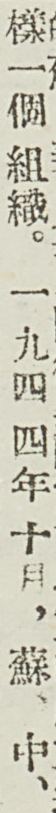樣一個組織。一九四四年十月，蘇、中、
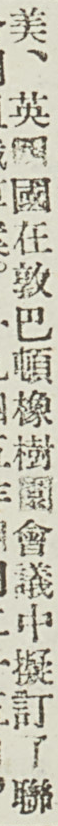美、英四國在頓巴頓橡樹園會議中擬定了聯
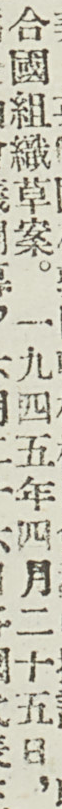合國組織草案。一九四五年四月二十五日，
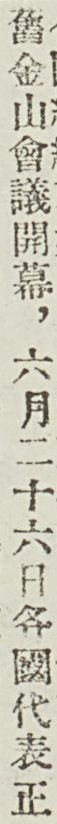舊金山會議開幕，六月二十六日各國代表正
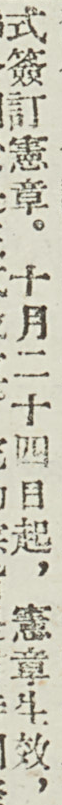式簽訂憲章。十月二十四日起，憲章生效，
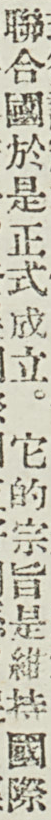聯合國於是正式成立。它的宗旨是維持國際
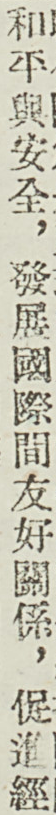和平與安全，發展國際間友好關係，促進經
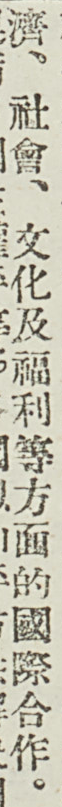濟、社會、文化及福利等方面的國際合作。
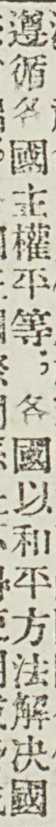遵循各國主權平等；各國以和平方法解決國
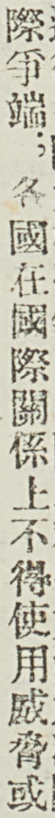際爭端；各國在國際關係上不得使用威脅或
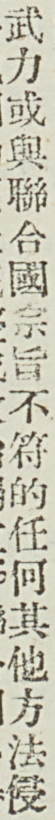武力或與聯合國宗旨不符的任何其他方法侵
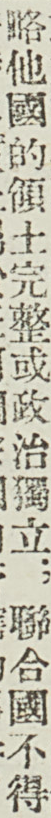略他國的領土完整或政治獨立；聯合國不得
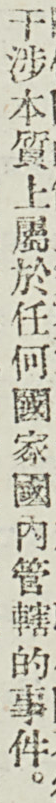干涉本質上屬於任何國家國內管轄的事件。
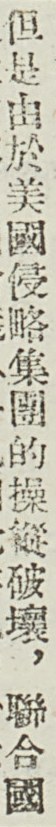但是由於美國侵略集團的操縱破壞，聯合國
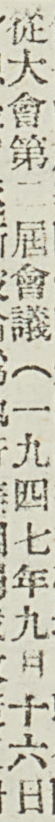從大會第二屆會議（一九四七年九月十六日
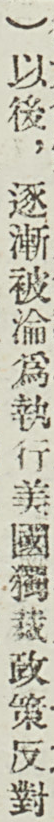）以後，逐漸被淪爲執行美國獨裁政策反對
